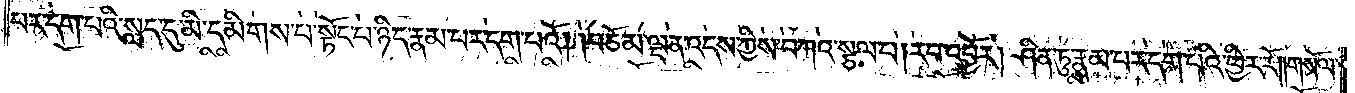པར་དག་པའི་སླད་དུ་མི་དམིགས་པ་སྟོང་པ་ཉིད་རྣམ་པར་དག་པའོ། །བཅོམ་ལྡན་འདས་ཀྱིས་བཀའ་སྩལ་པ། རབ་འབྱོར། ཤིན་ཏུ་རྣམ་པར་དག་པའི་ཕྱིར་རོ། །གསོལ་
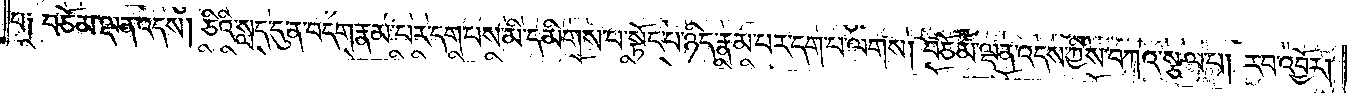པ༑ བཅོམ་ལྡན་འདས། ཅིའི་སླད་དུ་ན་བདག་རྣམ་པར་དག་པས་མི་དམིགས་པ་སྟོང་པ་ཉིད་རྣམ་པར་དག་པ་ལགས། བཅོམ་ལྡན་འདས་ཀྱིས་བཀའ་སྩལ་པ། རབ་འབྱོར།
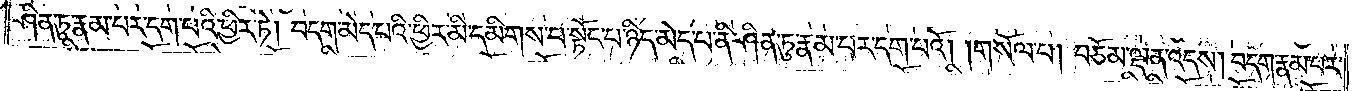ཤིན་ཏུ་རྣམ་པར་དག་པའི་ཕྱིར་ཏེ། བདག་མེད་པའི་ཕྱིར་མི་དམིགས་པ་སྟོང་པ་ཉིད་མེད་པ་ནི་ཤིན་ཏུ་རྣམ་པར་དག་པའོ། །གསོལ་པ། བཅོམ་ལྡན་འདས། བདག་རྣམ་པར་
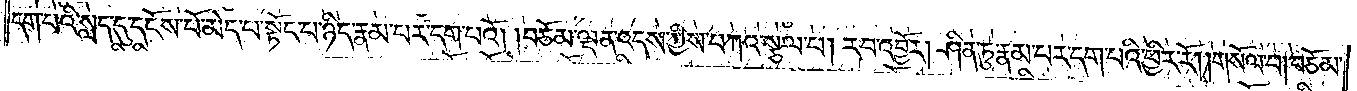དག་པའི་སླད་དུ་དངོས་པོ་མེད་པ་སྟོང་པ་ཉིད་རྣམ་པར་དག་པའོ། །བཅོམ་ལྡན་འདས་ཀྱིས་བཀའ་སྩལ་པ། རབ་འབྱོར། ཤིན་ཏུ་རྣམ་པར་དག་པའི་ཕྱིར་རོ། །གསོལ་པ། བཅོམ་
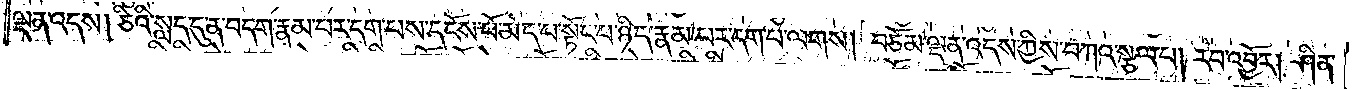ལྡན་འདས། ཅིའི་སླད་དུ་ན་བདག་རྣམ་པར་དག་པས་དངོས་པོ་མེད་པ་སྟོང་པ་ཉིད་རྣམ་པར་དག་པ་ལགས། བཅོམ་ལྡན་འདས་ཀྱིས་བཀའ་སྩལ་པ། རབ་འབྱོར། ཤིན་
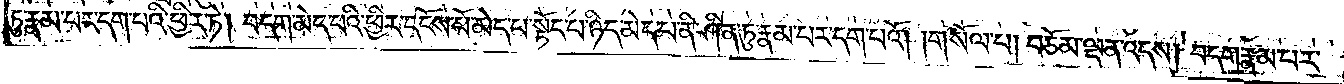ཏུ་རྣམ་པར་དག་པའི་ཕྱིར་ཏེ། བདག་མེད་པའི་ཕྱིར་དངོས་པོ་མེད་པ་སྟོང་པ་ཉིད་མེད་པ་ནི་ཤིན་ཏུ་རྣམ་པར་དག་པའོ། །གསོལ་པ། བཅོམ་ལྡན་འདས་བདག་རྣམ་པར་
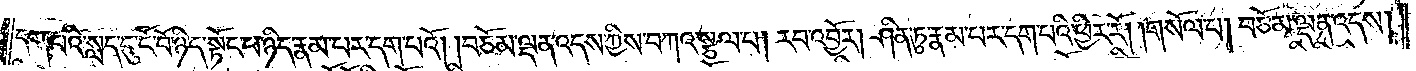དག་པའི་སླད་དུ་ངོ་བོ་ཉིད་སྟོང་པ་ཉིད་རྣམ་པར་དག་པའོ། །བཅོམ་ལྡན་འདས་ཀྱིས་བཀའ་སྩལ་པ། རབ་འབྱོར། ཤིན་ཏུ་རྣམ་པར་དག་པའི་ཕྱིར་རོ། །གསོལ་པ། བཅོམ་ལྡན་འདས།
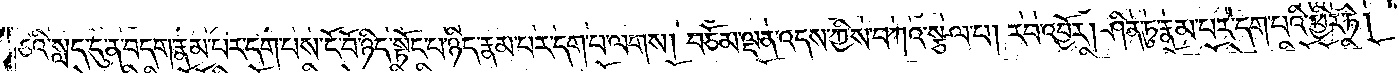ཅིའི་སླད་དུ་ན་བདག་རྣམ་པར་དག་པས་ངོ་བོ་ཉིད་སྟོང་པ་ཉིད་རྣམ་པར་དག་པ་ལགས། བཅོམ་ལྡན་འདས་ཀྱིས་བཀའ་སྩལ་པ། རབ་འབྱོར། ཤིན་ཏུ་རྣམ་པར་དག་པའི་ཕྱིར་ཏེ།
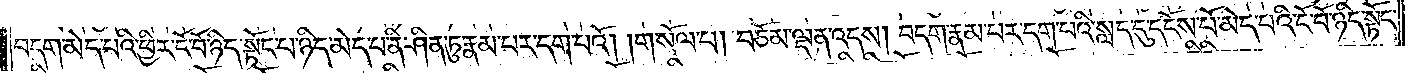བདག་མེད་པའི་ཕྱིར་ངོ་བོ་ཉིད་སྟོང་པ་ཉིད་མེད་པ་ནི་ཤིན་ཏུ་རྣམ་པར་དག་པའོ། །གསོལ་པ། བཅོམ་ལྡན་འདས། བདག་རྣམ་པར་དག་པའི་སླད་དུ་དངོས་པོ་མེད་པའི་ངོ་བོ་ཉིད་སྟོང་
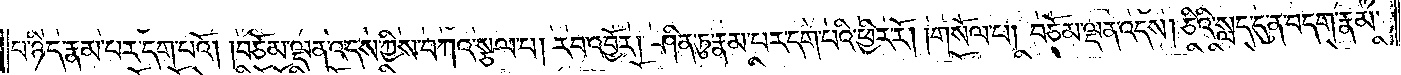པ་ཉིད་རྣམ་པར་དག་པའོ། །བཅོམ་ལྡན་འདས་ཀྱིས་བཀའ་སྩལ་པ། རབ་འབྱོར། ཤིན་ཏུ་རྣམ་པར་དག་པའི་ཕྱིར་རོ། །གསོལ་པ། བཅོམ་ལྡན་འདས། ཅིའི་སླད་དུ་ན་བདག་རྣམ་
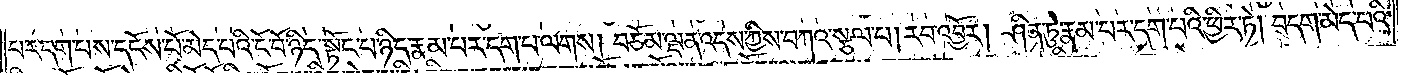པར་དག་པས་དངོས་པོ་མེད་པའི་ངོ་བོ་ཉིད་སྟོང་པ་ཉིད་རྣམ་པར་དག་པ་ལགས། བཅོམ་ལྡན་འདས་ཀྱིས་བཀའ་སྩལ་པ། རབ་འབྱོར། ཤིན་ཏུ་རྣམ་པར་དག་པའི་ཕྱིར་ཏེ། བདག་མེད་པའི་
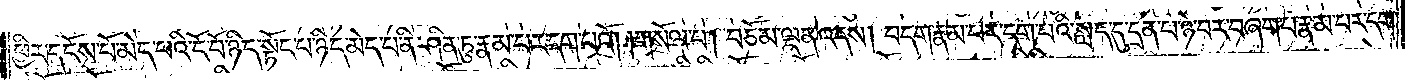ཕྱིར་དངོས་པོ་མེད་པའི་ངོ་བོ་ཉིད་སྟོང་པ་ཉིད་མེད་པ་ནི་ཤིན་ཏུ་རྣམ་པར་དག་པའོ། །གསོལ་པ། བཅོམ་ལྡན་འདས། བདག་རྣམ་པར་དག་པའི་སླད་དུ་དྲན་པ་ཉེ་བར་བཞག་པ་རྣམ་པར་དག་
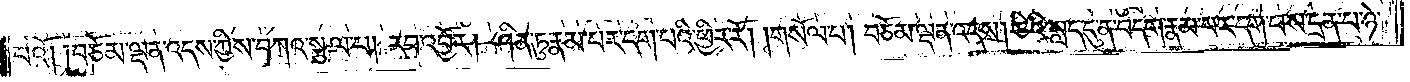པའོ། །བཅོམ་ལྡན་འདས་ཀྱིས་བཀའ་སྩལ་པ། རབ་འབྱོར། ཤིན་ཏུ་རྣམ་པར་དག་པའི་ཕྱིར་རོ། །གསོལ་པ། བཅོམ་ལྡན་འདས། ཅིའི་སླད་དུ་ན་བདག་རྣམ་པར་དག་པས་དྲན་པ་ཉེ་
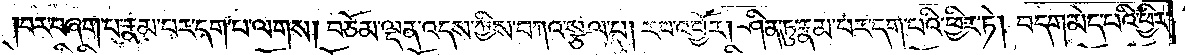བར་བཞག་པ་རྣམ་པར་དག་པ་ལགས། བཅོམ་ལྡན་འདས་ཀྱིས་བཀའ་སྩལ་པ། རབ་འབྱོར། ཤིན་ཏུ་རྣམ་པར་དག་པའི་ཕྱིར་ཏེ། བདག་མེད་པའི་ཕྱིར་
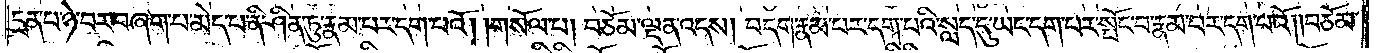དྲན་པ་ཉེ་བར་བཞག་པ་མེད་པ་ནི་ཤིན་ཏུ་རྣམ་པར་དག་པའོ། །གསོལ་པ། བཅོམ་ལྡན་འདས། བདག་རྣམ་པར་དག་པའི་སླད་དུ་ཡང་དག་པར་སྤོང་བ་རྣམ་པར་དག་པའོ། །བཅོམ་
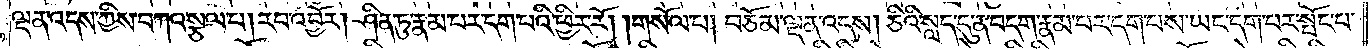ལྡན་འདས་ཀྱིས་བཀའ་སྩལ་པ། རབ་འབྱོར། ཤིན་ཏུ་རྣམ་པར་དག་པའི་ཕྱིར་རོ། །གསོལ་པ། བཅོམ་ལྡན་འདས། ཅིའི་སླད་དུ་ན་བདག་རྣམ་པར་དག་པས་ཡང་དག་པར་སྤོང་པ་
